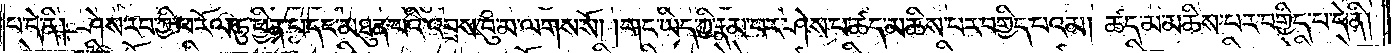པ་དེ་ནི། ཤེས་རབ་ཀྱི་ཕ་རོལ་ཏུ་ཕྱིན་པ་དང་མཐུན་པའི་འབྲས་བུ་མ་ལགས་སོ། །གང་ཡིད་ཀྱི་རྣམ་པར་ཤེས་པ་ཚད་མཆིས་པར་བགྱིད་པའམ། ཚད་མ་མཆིས་པར་བགྱིད་པ་དེ་ནི།
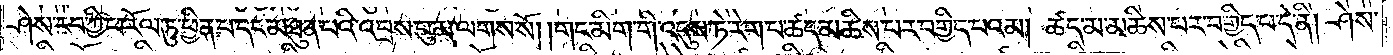ཤེས་རབ་ཀྱི་ཕ་རོལ་ཏུ་ཕྱིན་པ་དང་མཐུན་པའི་འབྲས་བུ་མ་ལགས་སོ། །གང་མིག་གི་འདུས་ཏེ་རེག་པ་ཚད་མཆིས་པར་བགྱིད་པའམ། ཚད་མ་མཆིས་པར་བགྱིད་པ་དེ་ནི། ཤེས་
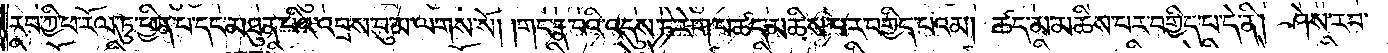རབ་ཀྱི་ཕ་རོལ་ཏུ་ཕྱིན་པ་དང་མཐུན་པའི་འབྲས་བུ་མ་ལགས་སོ། །གང་རྣ་བའི་འདུས་ཏེ་རེག་པ་ཚད་མཆིས་པར་བགྱིད་པའམ། ཚད་མ་མཆིས་པར་བགྱིད་པ་དེ་ནི། ཤེས་རབ་
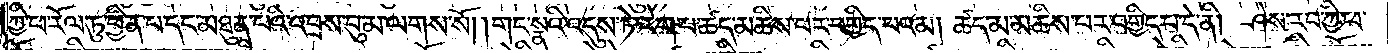ཀྱི་ཕ་རོལ་ཏུ་ཕྱིན་པ་དང་མཐུན་པའི་འབྲས་བུ་མ་ལགས་སོ། །གང་སྣའི་འདུས་ཏེ་རེག་པ་ཚད་མཆིས་པར་བགྱིད་པའམ། ཚད་མ་མཆིས་པར་བགྱིད་པ་དེ་ནི། ཤེས་རབ་ཀྱི་ཕ་
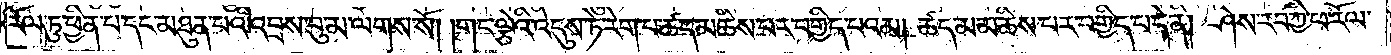རོལ་ཏུ་ཕྱིན་པ་དང་མཐུན་པའི་འབྲས་བུ་མ་ལགས་སོ། །གང་ལྕེའི་འདུས་ཏེ་རེག་པ་ཚད་མཆིས་པར་བགྱིད་པའམ། ཚད་མ་མཆིས་པར་བགྱིད་པ་དེ་ནི། ཤེས་རབ་ཀྱི་ཕ་རོལ་
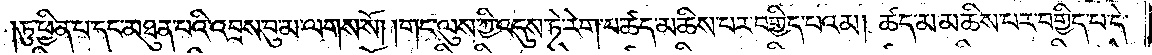ཏུ་ཕྱིན་པ་དང་མཐུན་པའི་འབྲས་བུ་མ་ལགས་སོ། །གང་ལུས་ཀྱི་འདུས་ཏེ་རེག་པ་ཚད་མཆིས་པར་བགྱིད་པའམ། ཚད་མ་མཆིས་པར་བགྱིད་པ་དེ་
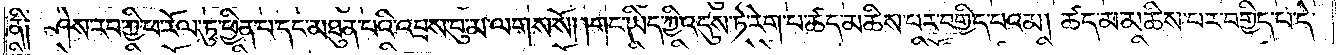ནི༑ ཤེས་རབ་ཀྱི་ཕ་རོལ་ཏུ་ཕྱིན་པ་དང་མཐུན་པའི་འབྲས་བུ་མ་ལགས་སོ། །གང་ཡིད་ཀྱི་འདུས་ཏེ་རེག་པ་ཚད་མཆིས་པར་བགྱིད་པའམ། ཚད་མ་མཆིས་པར་བགྱིད་པ་དེ་
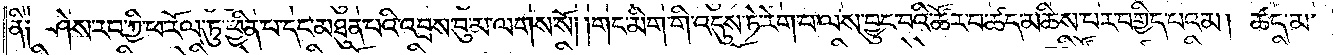ནི༑ ཤེས་རབ་ཀྱི་ཕ་རོལ་ཏུ་ཕྱིན་པ་དང་མཐུན་པའི་འབྲས་བུ་མ་ལགས་སོ། །གང་མིག་གི་འདུས་ཏེ་རེག་པ་ལས་བྱུང་བའི་ཚོར་བ་ཚད་མཆིས་པར་བགྱིད་པའམ། ཚད་མ་
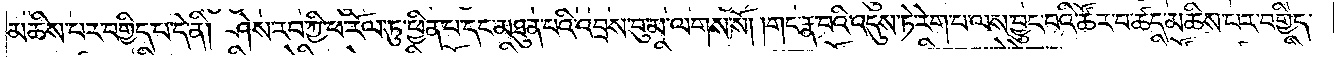མཆིས་པར་བགྱིད་པ་དེ་ནི། ཤེས་རབ་ཀྱི་ཕ་རོལ་ཏུ་ཕྱིན་པ་དང་མཐུན་པའི་འབྲས་བུ་མ་ལགས་སོ། །གང་རྣ་བའི་འདུས་ཏེ་རེག་པ་ལས་བྱུང་བའི་ཚོར་བ་ཚད་མཆིས་པར་བགྱིད་
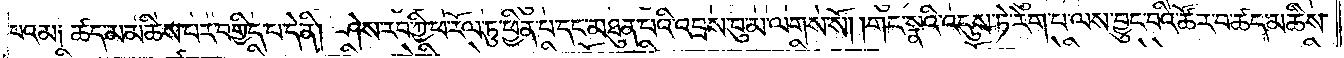པའམ༑ ཚད་མ་མཆིས་པར་བགྱིད་པ་དེ་ནི། ཤེས་རབ་ཀྱི་ཕ་རོལ་ཏུ་ཕྱིན་པ་དང་མཐུན་པའི་འབྲས་བུ་མ་ལགས་སོ། །གང་སྣའི་འདུས་ཏེ་རེག་པ་ལས་བྱུང་བའི་ཚོར་བ་ཚད་མཆིས་
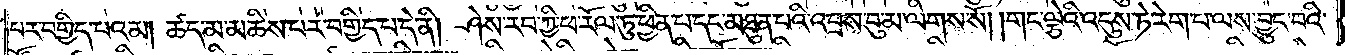པར་བགྱིད་པའམ། ཚད་མ་མཆིས་པར་བགྱིད་པ་དེ་ནི། ཤེས་རབ་ཀྱི་ཕ་རོལ་ཏུ་ཕྱིན་པ་དང་མཐུན་པའི་འབྲས་བུ་མ་ལགས་སོ། །གང་ལྕེའི་འདུས་ཏེ་རེག་པ་ལས་བྱུང་བའི་
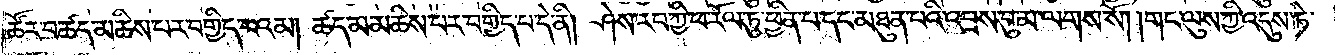ཚོར་བ་ཚད་མཆིས་པར་བགྱིད་པའམ། ཚད་མ་མཆིས་པར་བགྱིད་པ་དེ་ནི། ཤེས་རབ་ཀྱི་ཕ་རོལ་ཏུ་ཕྱིན་པ་དང་མཐུན་པའི་འབྲས་བུ་མ་ལགས་སོ། །གང་ལུས་ཀྱི་འདུས་ཏེ་
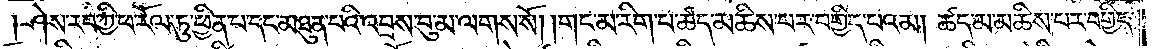ཤེས་རབ་ཀྱི་ཕ་རོལ་ཏུ་ཕྱིན་པ་དང་མཐུན་པའི་འབྲས་བུ་མ་ལགས་སོ། །གང་མ་རིག་པ་ཚད་མཆིས་པར་བགྱིད་པའམ། ཚད་མ་མཆིས་པར་བགྱིད་
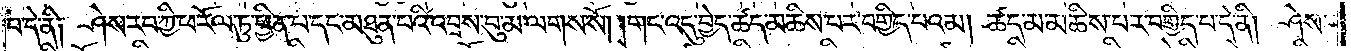པ་དེ་ནི༑ ཤེས་རབ་ཀྱི་ཕ་རོལ་ཏུ་ཕྱིན་པ་དང་མཐུན་པའི་འབྲས་བུ་མ་ལགས་སོ། །གང་འདུ་བྱེད་ཚད་མཆིས་པར་བགྱིད་པའམ། ཚད་མ་མཆིས་པར་བགྱིད་པ་དེ་ནི། ཤེས་
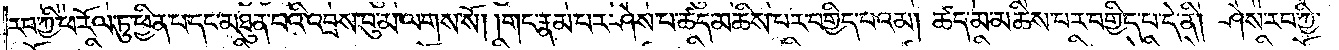རབ་ཀྱི་ཕ་རོལ་ཏུ་ཕྱིན་པ་དང་མཐུན་པའི་འབྲས་བུ་མ་ལགས་སོ། །གང་རྣམ་པར་ཤེས་པ་ཚད་མཆིས་པར་བགྱིད་པའམ། ཚད་མ་མཆིས་པར་བགྱིད་པ་དེ་ནི། ཤེས་རབ་ཀྱི་
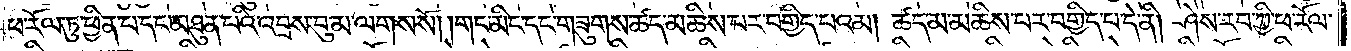ཕ་རོལ་ཏུ་ཕྱིན་པ་དང་མཐུན་པའི་འབྲས་བུ་མ་ལགས་སོ། །གང་མིང་དང་གཟུགས་ཚད་མཆིས་པར་བགྱིད་པའམ། ཚད་མ་མཆིས་པར་བགྱིད་པ་དེ་ནི། ཤེས་རབ་ཀྱི་ཕ་རོལ་
